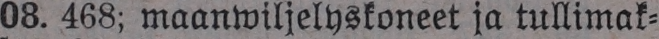08. 468; maanwiljelyskoneet ja tullimak-
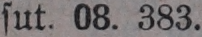sut. 08. 383.
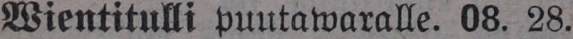Wientitulli puutawaralle. 08. 28.
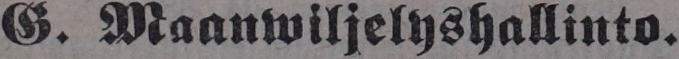G. Maanwiljelyshallinto.
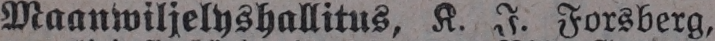Maanwiljelyshallitus, K. I. Forsberg,
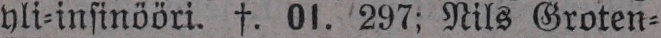yli-insinööri. †. 01. 297; Nils Groten-
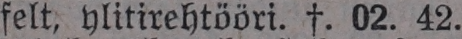felt, ylitirehtööri. †. 02. 42.
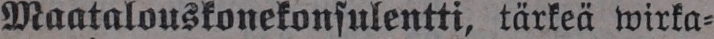Maatalouskonekonsulentti, tärkeä wirka-
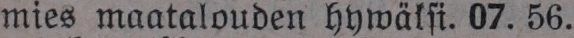mies maatalouden hywäksi. 07. 56.
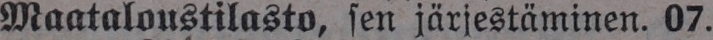Maatalouatilasto, sen järjestäminen. 07.
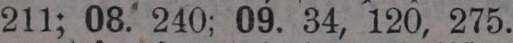211; 08. 240; 09. 34, 120, 275.
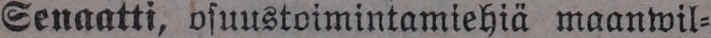Senaatti, osuustoimintamiehiä maanwil-
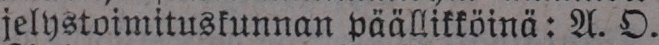jelystoimituskunnan päällikköinä: A. O.
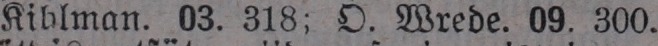Kihlman. 03. 318; O. Wrede. 09. 300.
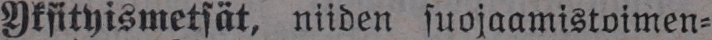Yksityismetsät, niiden suojaamistoimen-
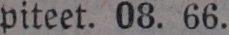piteet. 08. 66.
